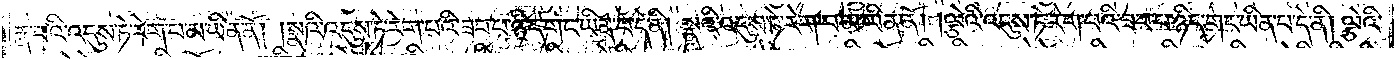རྣ་བའི་འདུས་ཏེ་རེག་པ་མ་ཡིན་ནོ། །སྣའི་འདུས་ཏེ་རེག་པའི་ཟབ་པ་ཉིད་གང་ཡིན་པ་དེ་ནི། སྣའི་འདུས་ཏེ་རེག་པ་མ་ཡིན་ནོ། །ལྕེའི་འདུས་ཏེ་རེག་པའི་ཟབ་པ་ཉིད་གང་ཡིན་པ་དེ་ནི། ལྕེའི་
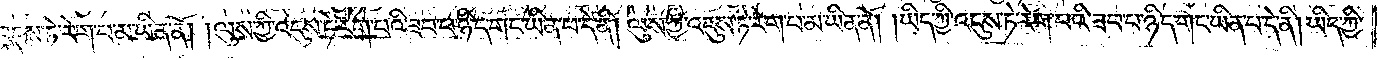འདུས་ཏེ་རེག་པ་མ་ཡིན་ནོ། །ལུས་ཀྱི་འདུས་ཏེ་རེག་པའི་ཟབ་པ་ཉིད་གང་ཡིན་པ་དེ་ནི། ལུས་ཀྱི་འདུས་ཏེ་རེག་པ་མ་ཡིན་ནོ། །ཡིད་ཀྱི་འདུས་ཏེ་རེག་པའི་ཟབ་པ་ཉིད་གང་ཡིན་པ་དེ་ནི། ཡིད་ཀྱི་
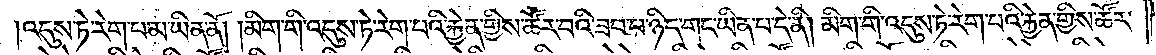འདུས་ཏེ་རེག་པ་མ་ཡིན་ནོ། །མིག་གི་འདུས་ཏེ་རེག་པའི་རྐྱེན་གྱིས་ཚོར་བའི་ཟབ་པ་ཉིད་གང་ཡིན་པ་དེ་ནི། མིག་གི་འདུས་ཏེ་རེག་པའི་རྐྱེན་གྱིས་ཚོར་
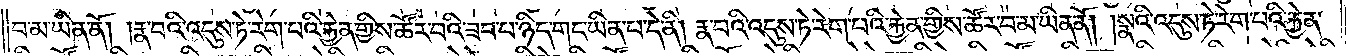བ་མ་ཡིན་ནོ། །རྣ་བའི་འདུས་ཏེ་རེག་པའི་རྐྱེན་གྱིས་ཚོར་བའི་ཟབ་པ་ཉིད་གང་ཡིན་པ་དེ་ནི། རྣ་བའི་འདུས་ཏེ་རེག་པའི་རྐྱེན་གྱིས་ཚོར་བ་མ་ཡིན་ནོ། །སྣའི་འདུས་ཏེ་རེག་པའི་རྐྱེན་
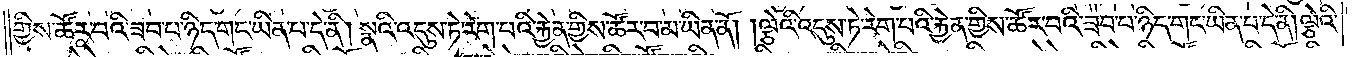གྱིས་ཚོར་བའི་ཟབ་པ་ཉིད་གང་ཡིན་པ་དེ་ནི། སྣའི་འདུས་ཏེ་རེག་པའི་རྐྱེན་གྱིས་ཚོར་བ་མ་ཡིན་ནོ། །ལྕེའི་འདུས་ཏེ་རེག་པའི་རྐྱེན་གྱིས་ཚོར་བའི་ཟབ་པ་ཉིད་གང་ཡིན་པ་དེ་ནི། ལྕེའི་
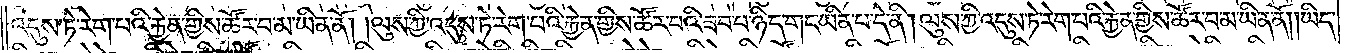འདུས་ཏེ་རེག་པའི་རྐྱེན་གྱིས་ཚོར་བ་མ་ཡིན་ནོ། །ལུས་ཀྱི་འདུས་ཏེ་རེག་པའི་རྐྱེན་གྱིས་ཚོར་བའི་ཟབ་པ་ཉིད་གང་ཡིན་པ་དེ་ནི། ལུས་ཀྱི་འདུས་ཏེ་རེག་པའི་རྐྱེན་གྱིས་ཚོར་བ་མ་ཡིན་ནོ། །ཡིད་
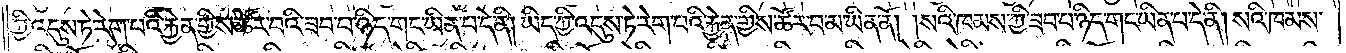ཀྱི་འདུས་ཏེ་རེག་པའི་རྐྱེན་གྱིས་ཚོར་བའི་ཟབ་པ་ཉིད་གང་ཡིན་པ་དེ་ནི། ཡིད་ཀྱི་འདུས་ཏེ་རེག་པའི་རྐྱེན་གྱིས་ཚོར་བ་མ་ཡིན་ནོ། །སའི་ཁམས་ཀྱི་ཟབ་པ་ཉིད་གང་ཡིན་པ་དེ་ནི། སའི་ཁམས་
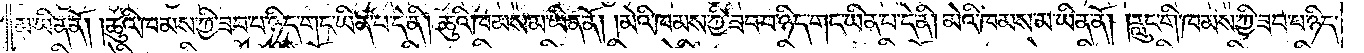མ་ཡིན་ནོ། །ཆུའི་ཁམས་ཀྱི་ཟབ་པ་ཉིད་གང་ཡིན་པ་དེ་ནི། ཆུའི་ཁམས་མ་ཡིན་ནོ། །མེའི་ཁམས་ཀྱི་ཟབ་པ་ཉིད་གང་ཡིན་པ་དེ་ནི། མེའི་ཁམས་མ་ཡིན་ནོ། །རླུང་གི་ཁམས་ཀྱི་ཟབ་པ་ཉིད་
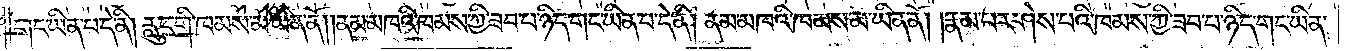གང་ཡིན་པ་དེ་ནི། རླུང་གི་ཁམས་མ་ཡིན་ནོ། །ནམ་མཁའི་ཁམས་ཀྱི་ཟབ་པ་ཉིད་གང་ཡིན་པ་དེ་ནི། ནམ་མཁའི་ཁམས་མ་ཡིན་ནོ། ། རྣམ་པར་ཤེས་པའི་ཁམས་ཀྱི་ཟབ་པ་ཉིད་གང་ཡིན་
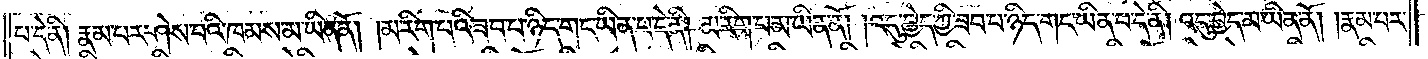པ་དེ་ནི། རྣམ་པར་ཤེས་པའི་ཁམས་མ་ཡིན་ནོ། །མ་རིག་པའི་ཟབ་པ་ཉིད་གང་ཡིན་པ་དེ་ནི། མ་རིག་པ་མ་ཡིན་ནོ། །འདུ་བྱེད་ཀྱི་ཟབ་པ་ཉིད་གང་ཡིན་པ་དེ་ནི། འདུ་བྱེད་མ་ཡིན་ནོ། །རྣམ་པར་
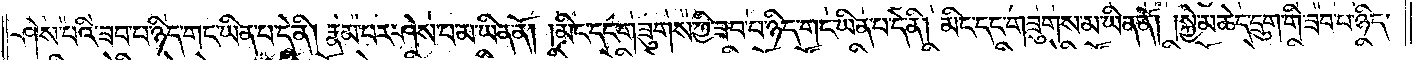ཤེས་པའི་ཟབ་པ་ཉིད་གང་ཡིན་པ་དེ་ནི། རྣམ་པར་ཤེས་པ་མ་ཡིན་ནོ། །མིང་དང་གཟུགས་ཀྱི་ཟབ་པ་ཉིད་གང་ཡིན་པ་དེ་ནི། མིང་དང་གཟུགས་མ་ཡིན་ནོ། །སྐྱེ་མཆེད་དྲུག་གི་ཟབ་པ་ཉིད་
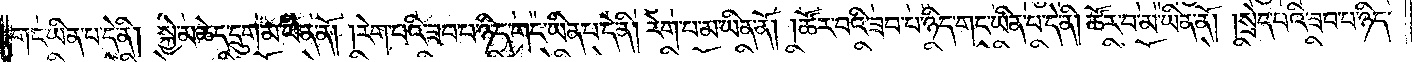གང་ཡིན་པ་དེ་ནི། སྐྱེ་མཆེད་དྲུག་མ་ཡིན་ནོ། །རེག་པའི་ཟབ་པ་ཉིད་གང་ཡིན་པ་དེ་ནི། རེག་པ་མ་ཡིན་ནོ། །ཚོར་བའི་ཟབ་པ་ཉིད་གང་ཡིན་པ་དེ་ནི། ཚོར་བ་མ་ཡིན་ནོ། །སྲེད་པའི་ཟབ་པ་ཉིད་
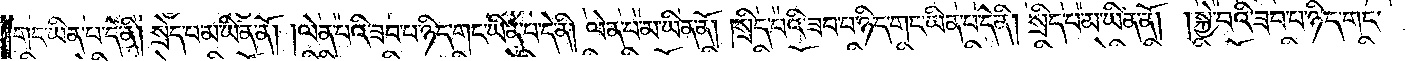གང་ཡིན་པ་དེ་ནི། སྲེད་པ་མ་ཡིན་ནོ། །ལེན་པའི་ཟབ་པ་ཉིད་གང་ཡིན་པ་དེ་ནི། ལེན་པ་མ་ཡིན་ནོ། །སྲིད་པའི་ཟབ་པ་ཉིད་གང་ཡིན་པ་དེ་ནི། སྲིད་པ་མ་ཡིན་ནོ། །སྐྱེ་བའི་ཟབ་པ་ཉིད་གང་
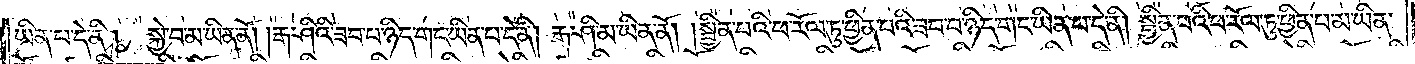ཡིན་པ་དེ་ནི། སྐྱེ་བ་མ་ཡིན་ནོ། །རྒ་ཤིའི་ཟབ་པ་ཉིད་གང་ཡིན་པ་དེ་ནི། རྒ་ཤི་མ་ཡིན་ནོ། །སྦྱིན་པའི་ཕ་རོལ་ཏུ་ཕྱིན་པའི་ཟབ་པ་ཉིད་གང་ཡིན་པ་དེ་ནི། སྦྱིན་པའི་ཕ་རོལ་ཏུ་ཕྱིན་པ་མ་ཡིན་
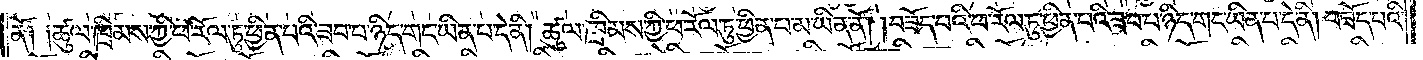ནོ༑ ༑ཚུལ་ཁྲིམས་ཀྱི་ཕ་རོལ་ཏུ་ཕྱིན་པའི་ཟབ་པ་ཉིད་གང་ཡིན་པ་དེ་ནི། ཚུལ་ཁྲིམས་ཀྱི་ཕ་རོལ་ཏུ་ཕྱིན་པ་མ་ཡིན་ནོ། །བཟོད་པའི་ཕ་རོལ་ཏུ་ཕྱིན་པའི་ཟབ་པ་ཉིད་གང་ཡིན་པ་དེ་ནི། བཟོད་པའི་
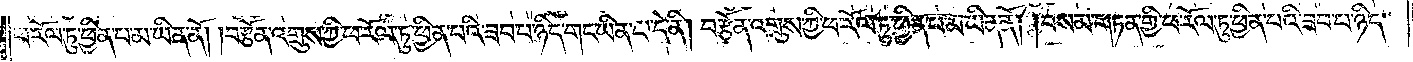ཕ་རོལ་ཏུ་ཕྱིན་པ་མ་ཡིན་ནོ། །བརྩོན་འགྲུས་ཀྱི་ཕ་རོལ་ཏུ་ཕྱིན་པའི་ཟབ་པ་ཉིད་གང་ཡིན་པ་དེ་ནི། བརྩོན་འགྲུས་ཀྱི་ཕ་རོལ་ཏུ་ཕྱིན་པ་མ་ཡིན་ནོ། །བསམ་གཏན་གྱི་ཕ་རོལ་ཏུ་ཕྱིན་པའི་ཟབ་པ་ཉིད་
